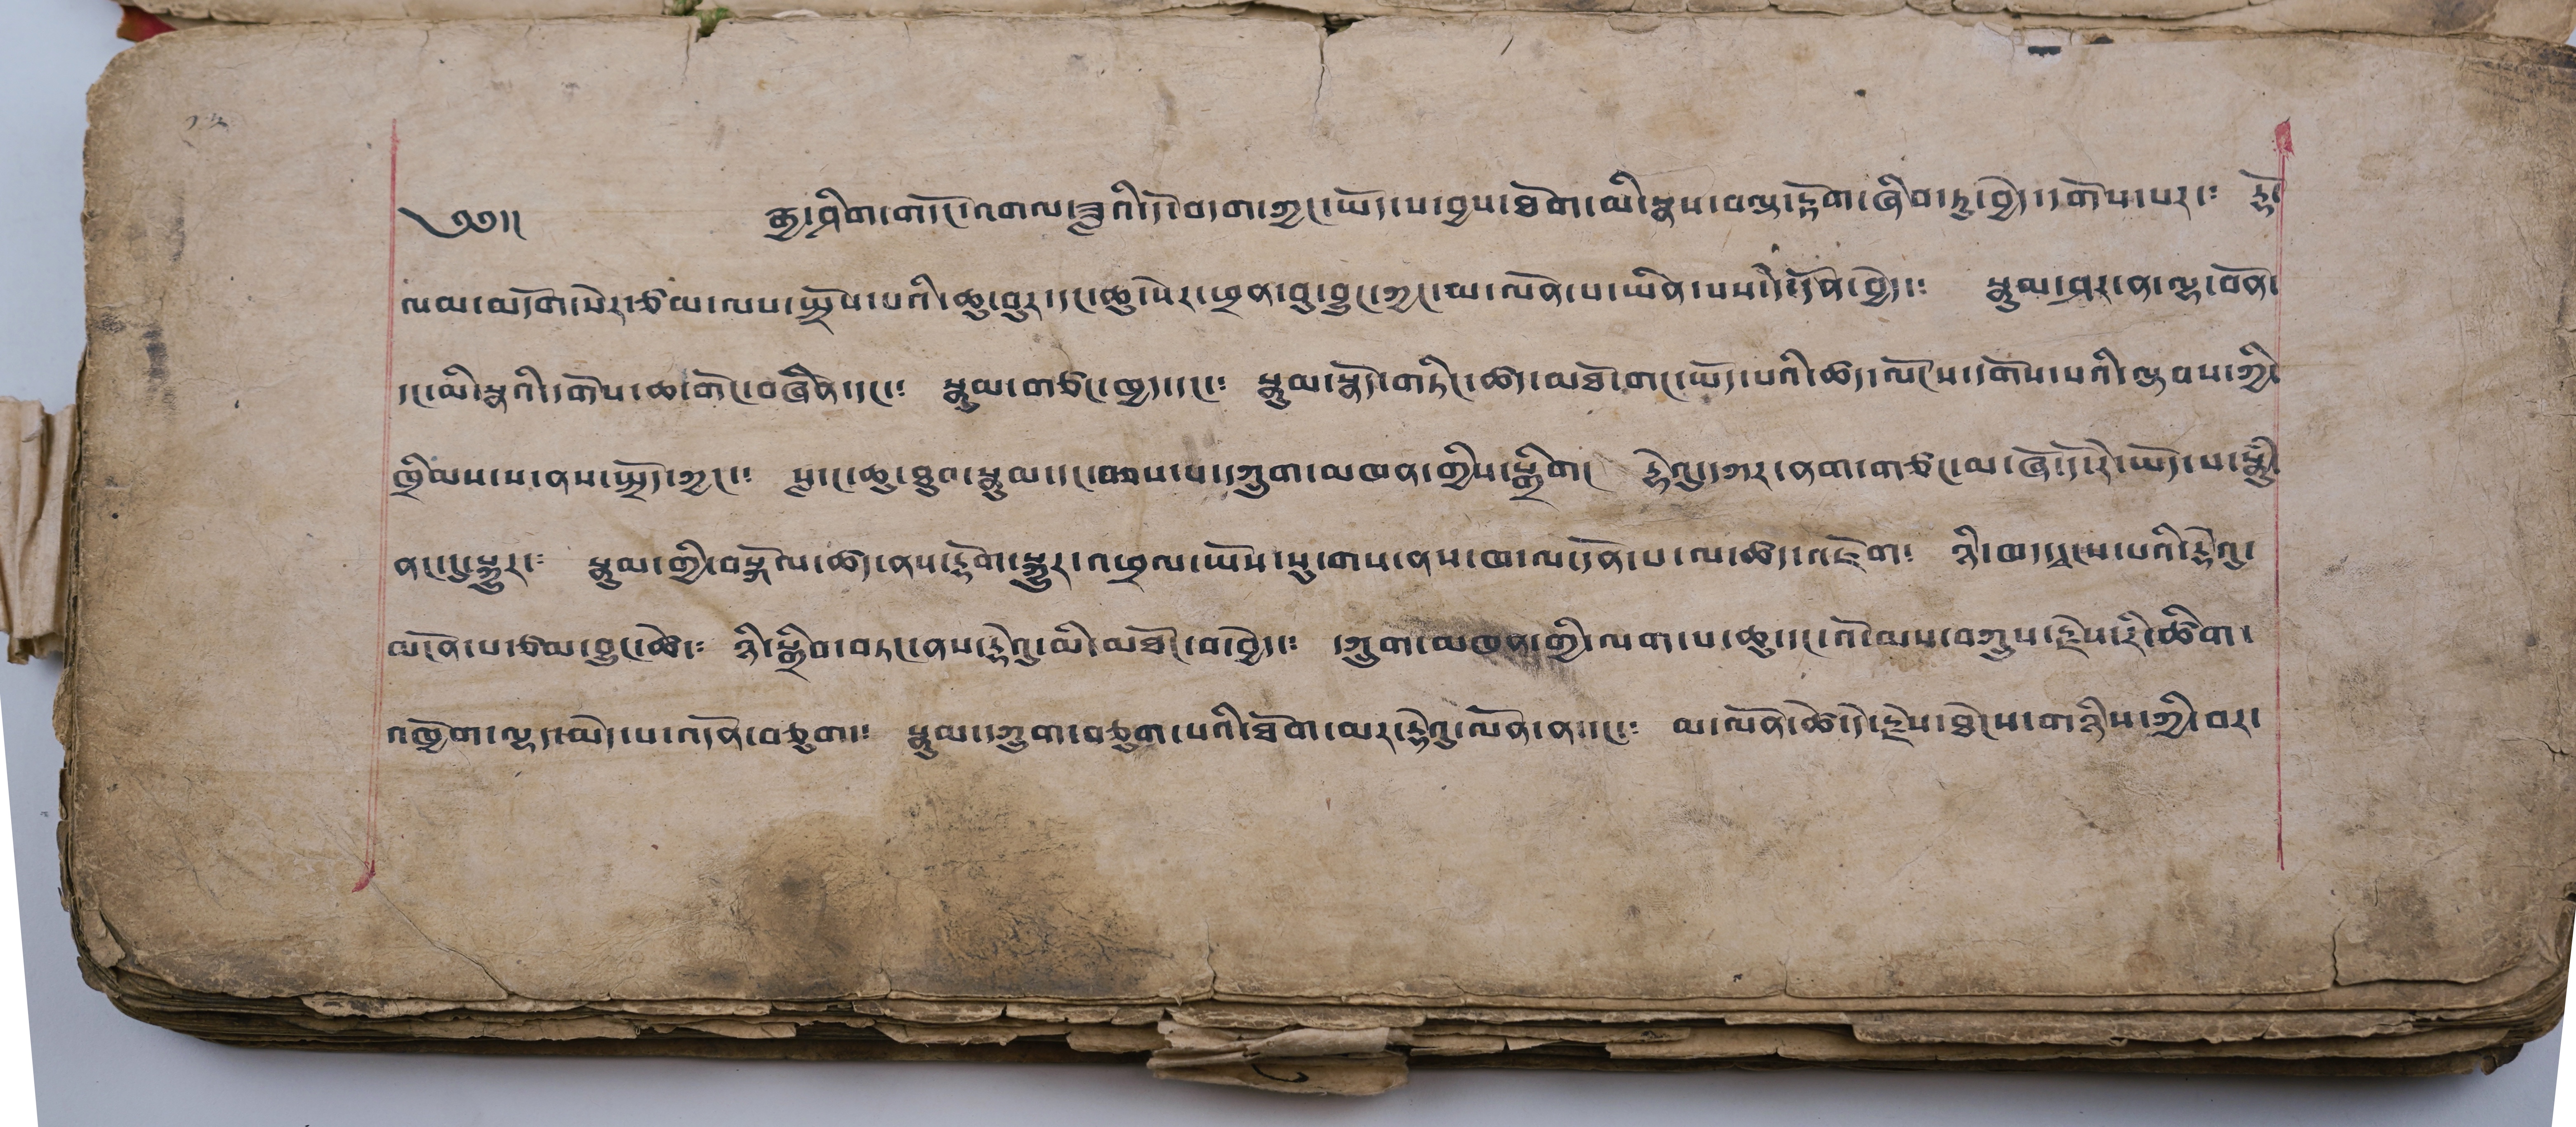༡༣
༄༅།། རྒྱ་ཤིག་གདོང་འགལ་ཟླའི་དོ་བདག་ཀྱང་ཡོད་པ་བྱས་ཐོག་མི་སྣས་བརྡ་རྟོག་ཞིབ་ཏུ་བྱེད་དགོས་པར་༴ རྡོ་
ལམ་མདོག་སེར་ཙམ་ལས་སྤྲོས་པའི་ཆུ་བུར་དང་ཆུ་སེར་ཕྲན་བུ་བྱུང་ཀྱང་མ་ལོན་པ་ཡིན་པས་དེ་དོན་བྱེད་༴ སྣུམ་ཤར་ན་ལྷ་བོན་
དང་མི་སྣའི་དགོས་ཆ་གོང་བཞིན་དང་༴ སྣུམ་གཙང་ཁྱད་དང་༴ སྣུམ་སྣོད་གཏིང་ཚད་མཐོ་གང་ཡོད་པའི་ཚད་ལོངས་དགོས་པའི་ལྟབས་ཀྱི་
ཁྲིམས་པ་ནས་སྤྲོད་ཀྱང་༴ སླ་ང་ཆུ་ཐུབ་སྣུམ་དང་བཅས་པ་དཀྲུག་མཁན་གྱིས་སྒྲིག། རྟེའུ་དཀར་ནག་གཙང་མ་ཞོ་དོ་རེ་ཡོད་པ་སྣུཾ་
ནང་དུ་སྐྱུར་༴ སྣུམ་གྱི་བསྐོལ་ཚད་ནས་རྡོག་སྐྱུར་འཕྲལ་ཡོས་སུ་གས་ནས་ཁ་ལ་དོན་པ་ལ་ཚད་འཇོག། ཉི་ཁད་དྭངས་པའི་སྟེའུ་
མངོན་པ་ཙམ་བྱུང་ཚེ་༴ ཉི་སྒྲིབ་བཏང་ནས་རྟེའུ་མི་མཐོང་བ་བྱེད་༴ དཀྲུག་མཁན་གྱི་ལག་པ་ཆུ་དང་འོ་མས་བཀྲུས་རྗེས་རི་ཚིག་
འཁྱོག་ལྷ་མེད་པ་འདོན་བཅུག་༴ སྣུམ་དཀྲུག་བཅུག་པའི་ཐོག་མར་སྟེའུ་ལོན་ན་དང་༴ མ་ལོན་ཚེ་དེ་རྗེས་ཐེངས་གཉིས་ཀྱི་བར་
